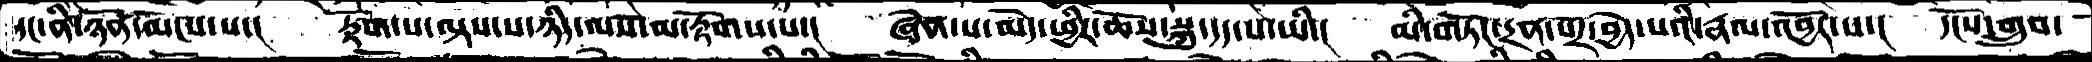དང་ནི་ཉོན་མོངས་པ་།    རྟོག་པ་ལྟས་པ་ཉིད་ལས་མ་རྟོགས་པ་།    ཞེན་པ་མེད་ཕྱིར་ཆོས་སྐུ་དད་པ་ཡི་།    མི་གཏོང་དྲན་པར་བྱེད་པའི་རྣལ་འབྱོར་པ་།    དངོས་གྲུབ་
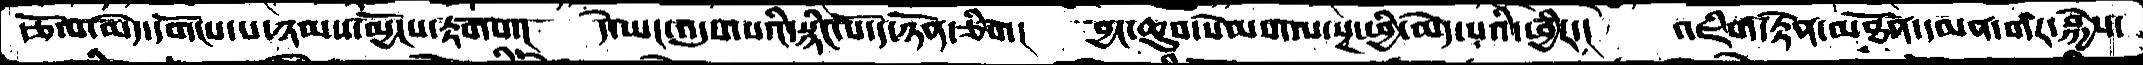རྩོལ་མེད་དགོངས་པ་ཉམས་མྱོང་རྟགས་།    དེ་ཡང་འདུས་པའི་སྙིང་པོ་ད་ཉོན་ཅིག།    བྱང་ཆུབ་སེམས་ལ་སྔ་ཕྱི་མེད་པའི་ཕྱིར་།    འཇིག་རྟེན་མཐོན་དམན་གར་སྐྱེས་
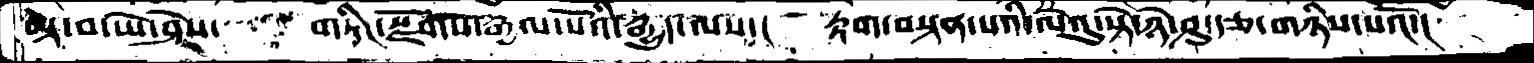ལྟ་བ་ཡེ་ཤེས་  གཏིང་སྫོགས་རྒྱལ་པོའི་རྒྱུད་ལས་།  རྟག་བསྟན་པའི་ལེའུ་སྟེ་ཉེ་ཤུ་རྩ་གཉིས་པའོ་།
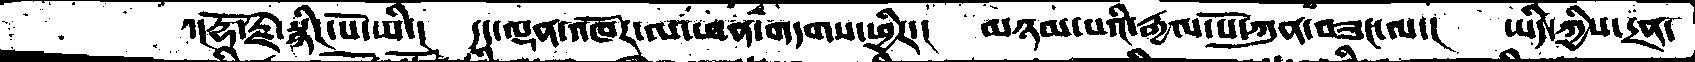་།རྡོ་རྗེ་སྙིང་པོ་ཡི་།  དདལྡན་འཁོར་ལ་ཕན་གདགས་ཕྱིར་།  མཉམ་པའི་རྒྱལ་པོ་ཀུན་བཟང་ལ་།  ཡིད་ཀྱིས་དྲན་
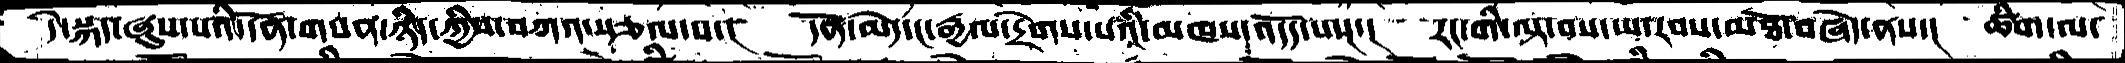དེ་སྐད་ཞུས་པའི་དོན་གསན་ཉིད་ཀྱིས་བཀའ་སྩལ་པ་།  དོན་མེད་ང་རྒྱལ་དྲེགས་པའི་མཁས་འདོད་པས་།  རང་གི་ལྟ་བས་ཡ་རབས་མཐོ་བཞེད་ནས་།  ཚིག་ལ་
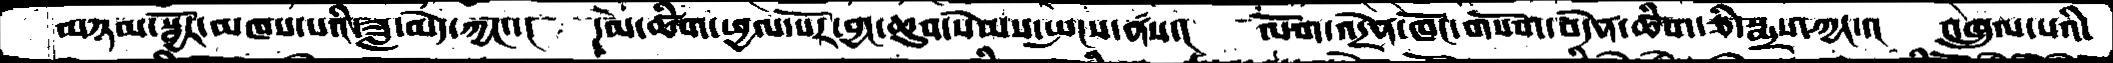མཉམ་སྦྱོར་མཁས་པའི་ཟླ་མེད་ཀྱང་་།  དམ་ཚིག་ཕྱལ་སོར་བྱང་ཆུབ་སེམས་སྤང་ནས་།  ལོག་འདྲེན་ཁོང་གསོག་བདེན་ཚིག་ཅི་སྨྲས་ཀྱང་་།  འཁྲུལ་པའི་
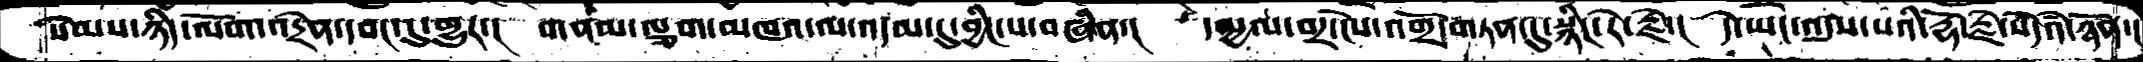སེམས་ཉིད་ལོག་འདྲེན་དབང་དུ་གྱུར་།  གནམ་ལྕག་མཁའ་ལ་འདམ་དུ་བྱིང་པ་བཞིན་།  དམྱལ་བར་ངེས་འགྲོདགཏན་དུ་སྙིང་རེ་རྗེ་།  དེ་ཡང་འདུས་པའི་རྡོ་རྗེ་སེདཾའ་ཉོན་།
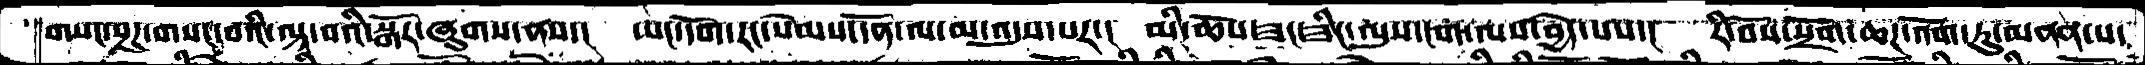གསང་སྔཌ་གསང་བའི་ལྟ་བའི་སྒོར་ཞུགས་ནས་། ཡང་དོག་རང་སེམས་དོན་ལ་མ་འདུས་པར་། མི་ཆོས་ཟང་ཟིང་ལུས་ངག་ལས་བྱེད་པས་། རི་བོས་སྲོག་ཆཌ་འོག་ཏུ་མནན་པ་
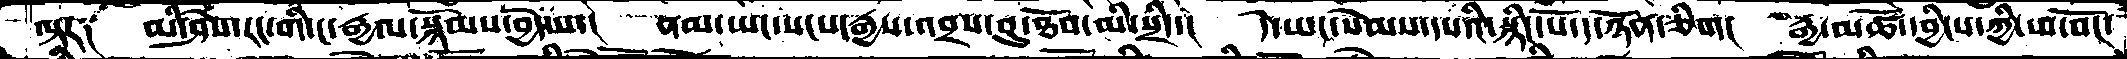ལྟར༑  མི་ཤེས་་རང་གི་ང་རྒྱལ་སྙོམས་བྱེད་པ་།  ནམ་ཡང་སངས་རྒྱས་འབྲས་བུ་ཐོབ་མི་སྲིད་།  དེ་ཡང་སེམས་དཔའི་སྙིང་པོ་ད་ཉོན་ཅིག།  རྒྱ་མཚོ་དབྱིངས་ཀྱི་ཕ་བོང་
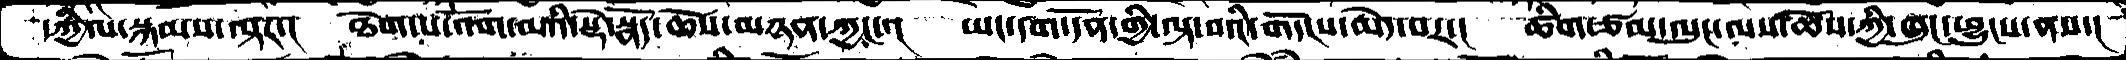དཀྱིལ་སྐམས་ལྟར་།  ཐེག་པ་འོག་མའི་སྡེ་སྣོད་ཆོས་མཉན་ཀྱང་་།  ཡང་དག་དོན་གྱི་ལྟ་བའི་གདོངས་མེད་པར་།  ཚིག་ཙམ་ལུང་ལས་ཆོས་ཀྱི་ཁུང་ཕྱུངས་ནས་།
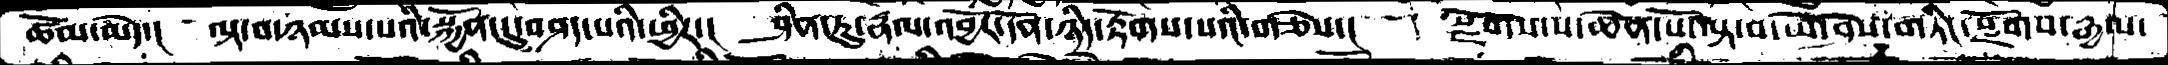ཚོམ་མེད་།  ལྟ་བ་ཉམས་པའི་སྐྱོན་དུ་བཤད་པའི་ཕྱིར་།  ཤིན་ཏུ་རྣལ་འབྱོར་དོན་ཉིད་རྟོགས་པའི་གཅེས་།  སྫོགས་པ་ཆེན་པོ་ལྟ་བ་ཡེ་ཤེས་གཏིང་སྫོགས་རྒྱལ་
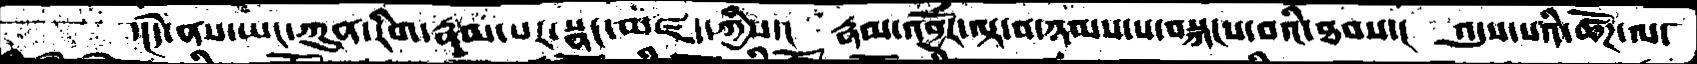་།དེ་ནས་ཡང་ཀུན་རིག་རྣམ་པར་སྣང་མཛད་ཀྱིས་།  རྣལ་འབྱོར་ལྟ་བ་ཉམས་པ་བསྐངས་བའི་ཐབས་།  འདུས་པའི་ཚོཌ་ལ་
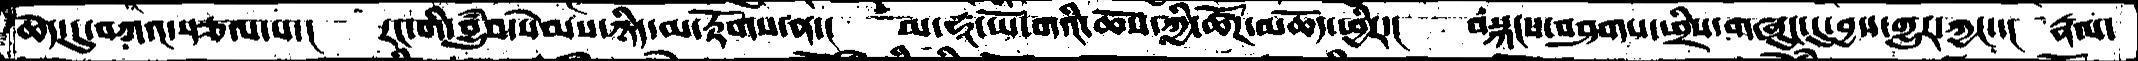ཆེད་དུ་བཀའ་སྩལ་པ་།  རང་གི་བྱུཾབ་སེམས་ཉིད་མ་རྟོགས་ན་།  མ་ཧཱ་ཡོ་གའི་ཆོས་ཀྱི་ཚོཌ་མཆོད་ཕྱིར་།  བསྐངས་བཤགས་ཕྲིས་གཞུང་དུ་བྱས་གྱུར་ཀྱང་་།  རྣལ་
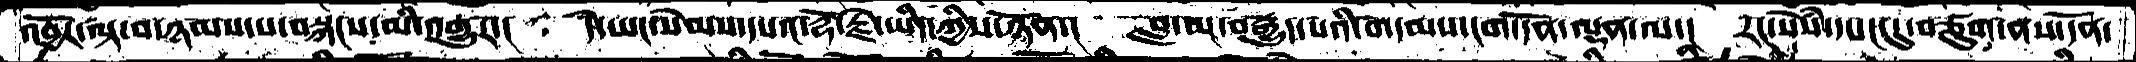འབྱོར་ལྟ་བ་ཉམས་པ་བསྐངས་མི་འགྱུར་།  དེ་ཡང་སེམས་དཔའ་རྡོ་རྗེ་ཡིད་ཀྱིས་ཉོན་།  བླ་མ་བརྒྱུད་པའི་གདམས་ངག་དོན་ལྡན་ལ་།  རང་སེཾས་དཔང་དུ་བཙུག་ནས་དོན་
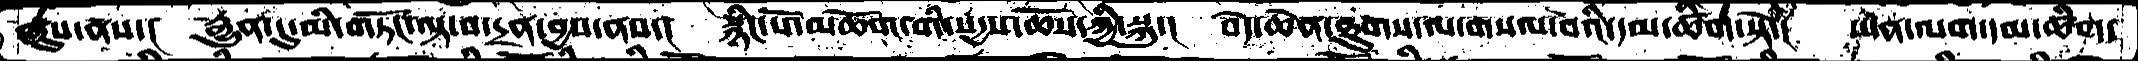ཞུས་ནས་།  རྒྱུན་དུ་མི་གཏོང་ལྟ་བ་དྲན་བྱས་ནས་།  སྙིང་པོ་མཆོག་གི་སདྱས་ཆོས་ཀྱི་སྐུ་།  བདེ་ཆེན་ཐུགས་ལ་གསལ་བའི་དམ་ཚིག་སྟེ་།  ཡན་ལག་དམ་ཚིག་
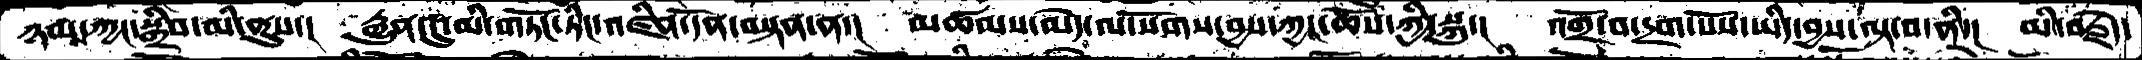ཉམ་ཀྱང་སྒྲིབ་མི་ནུས་།  རྒྱུན་དུ་མི་གཏོང་ཏིང་འཛིན་དོན་བསྟན་ན་།  མཚམས་མེད་ལ་སོགས་བྱས་ཀྱང་ཆོས་ཀྱི་སྐུ་།  འགྲོ་བ་དྲག་པོས་ཡིད་བྱས་ལྟ་བ་ནི་།  མི་བརྗེད་
